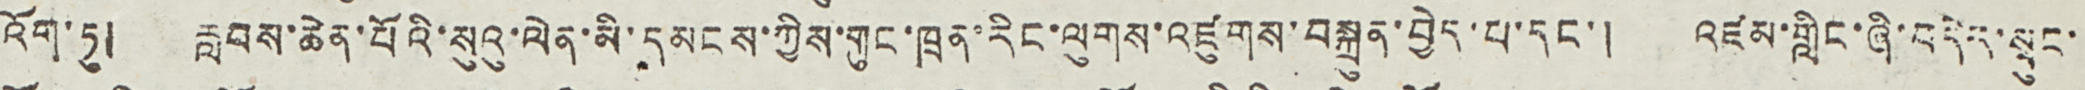འོག་ཏུ། རླབས་ཆེན་པོའི་སུའུ་ལེན་མི་དམངས་ཀྱིས་གུང་ཁྲན་རིང་ལུགས་འཛུགས་བསྐྲུན་བྱེད་པ་དང་། འཛམ་གླིང་ཞི་བདེར་སྲུང་
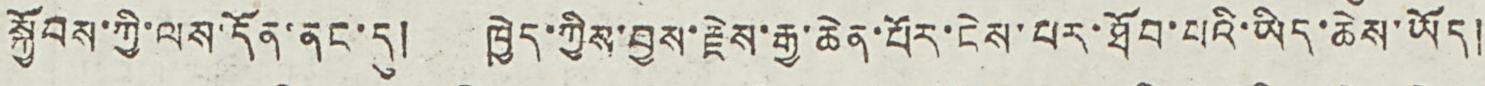སྐྱོབས་ཀྱི་ལས་དོན་ནང་དུ། ཁྱེད་ཀྱིས་བྱས་རྗེས་རྒྱ་ཆེན་པོར་ངེས་པར་ཐོབ་པའི་ཡིད་ཆེས་ཡོད།
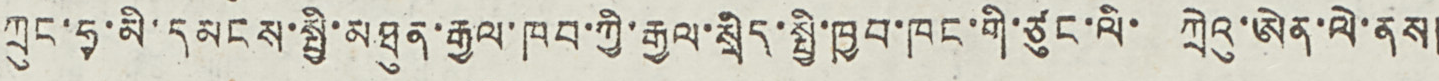ཀྲུང་ཧྭ་མི་དམངས་སྤྱི་མཐུན་རྒྱལ་ཁབ་ཀྱི་རྒྱལ་སྲིད་སྤྱི་ཁྱབ་ཁང་གི་ཙུང་ལི་ ཀྲེའུ་ཨེན་ལེ་ནས།
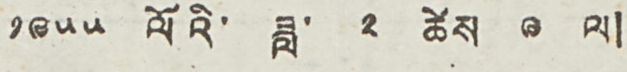༡༩༥༥ ལོའི་ ཟླ་ ༢ ཚེས ༩ ལ།
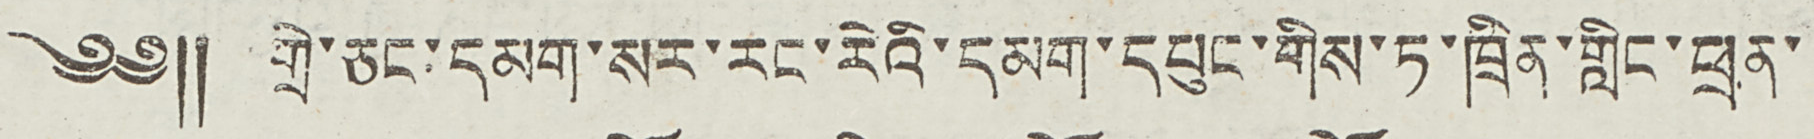༄༅༎ གྲེ་ཅང་དམག་སར་རང་རེའི་དམག་དཔུང་གིས་ཏ་ཁྲིན་གླིང་ཕྲན་
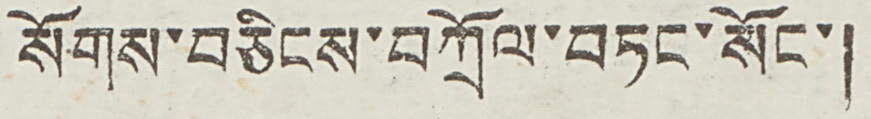སོགས་བཅིངས་བཀྲོལ་བཏང་སོང་།
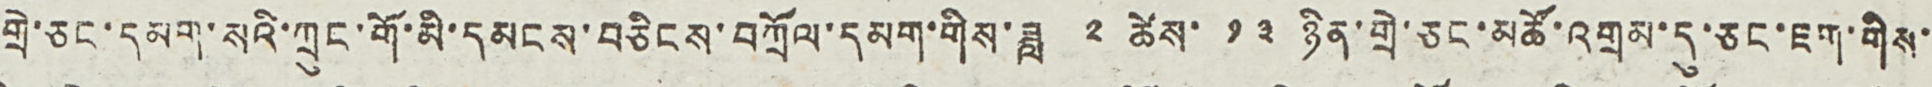གྲེ་ཅང་དམག་སའི་ཀྲུང་གོ་མི་དམངས་བཅིངས་བཀྲོལ་དམག་གིས་ཟླ ༢ ཚེས་ ༡༣ ཉིན་གྲེ་ཅང་མཚོ་འགྲམ་དུ་ཅང་ཇག་གིས་
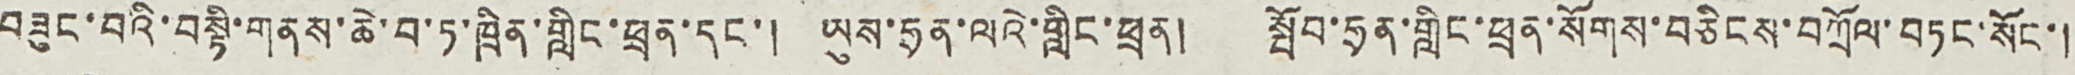བཟུང་བའི་བསྟི་གནས་ཆེ་བ་ཏ་ཁྲིན་གླིང་ཕྲན་དང་། ཡུས་ཧྲན་ལའེ་གླིང་ཕྲན། སྤོབ་ཧྲན་གླིང་ཕྲན་སོགས་བཅིངས་བཀྲོལ་བཏང་སོང་།
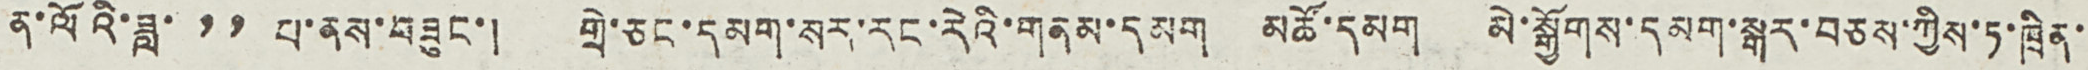ན་ལོའི་ཟླ་ ༡༡ པ་ནས་བཟུང་། གྲེ་ཅང་དམག་སར་རང་རེའི་གནམ་དམག མཚོ་དམག མེ་སྒྱོགས་དམག་སྒར་བཅས་ཀྱིས་ཏ་ཁྲིན་
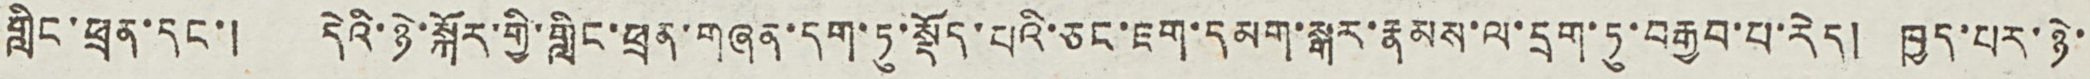གླིང་ཕྲན་དང་། དེའི་ཉེ་སྐོར་གྱི་གླིང་ཕྲན་གཞན་དག་ཏུ་སྡོད་པའི་ཅང་ཇག་དམག་སྒར་རྣམས་ལ་དྲག་ཏུ་བརྒྱབ་པ་རེད། ཁྱད་པར་ཉེ་
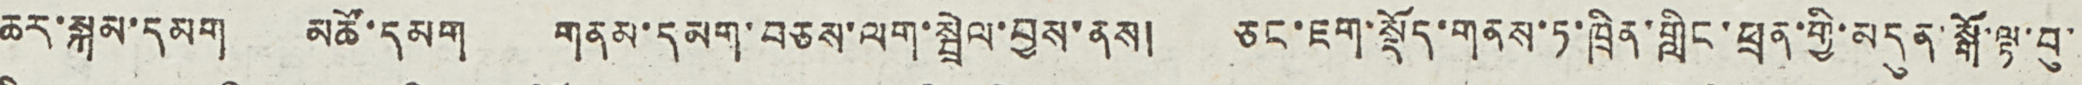ཆར་སྐམ་དམག མཚོ་དམག གནམ་དམག་བཅས་ལག་སྦྲེལ་བྱས་ནས། ཅང་ཇག་སྡོད་གནས་ཏ་ཁྲིན་གླིང་ཕྲན་གྱི་མདུན་སྒོ་ལྟ་བུ་
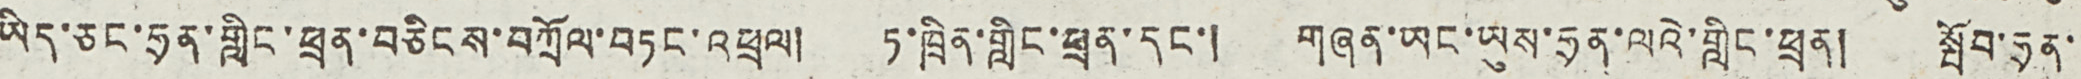ཡིད་ཅང་ཧྲན་གླིང་ཕྲན་བཅིངས་བཀྲོལ་བཏང་བཕྲལ། ཏ་ཁྲིན་གླིང་ཕྲན་དང་། གཞན་ཡང་ཡུས་ཧྲན་ལའེ་གླིང་ཕྲན། སྤོབ་ཧྲན་
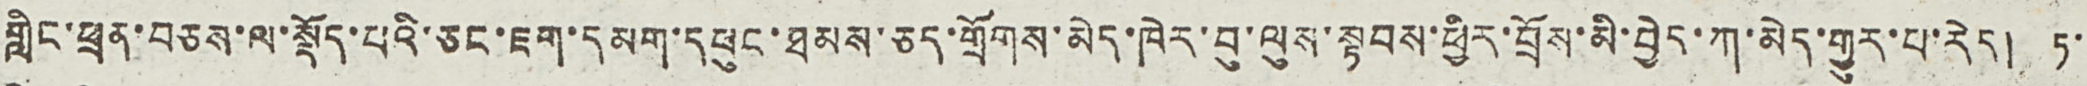གླིང་ཕྲན་བཅས་ལ་སྡོད་པའི་ཅང་ཇག་དམག་དཔུང་ཐམས་ཅད་གྲོགས་མེད་ཁེར་བུ་ལུས་སྟབས་ཕྱིར་བྲོས་མི་བྱེད་ཀ་མེད་གྱུར་པ་རེད། ཏ་
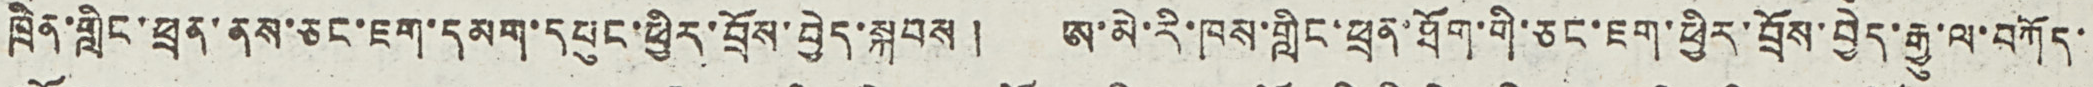ཁྲིན་གླིང་ཕྲན་ནས་ཅང་ཇག་དམག་དཔུང་ཕྱིར་བྲོས་བྱེད་སྐབས། ཨ་མེ་རི་ཁས་གླིང་ཕྲན་ཐོག་གི་ཅང་ཇག་ཕྱིར་བྲོས་བྱེད་རྒྱུ་ལ་བཀོད་
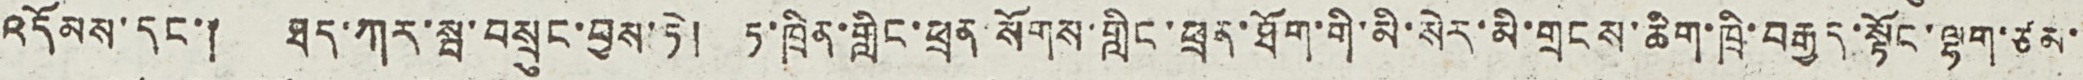འདོམས་དང་། ཐད་ཀར་སྦ་བསྲུང་བྱས་ཏེ། ཏ་ཁྲིན་གླིང་ཕྲན་སོགས་གླིང་ཕྲན་ཐོག་གི་མི་སེར་མི་གྲངས་ཆིག་ཁྲི་བརྒྱད་སྟོང་ལྷག་ཙམ་
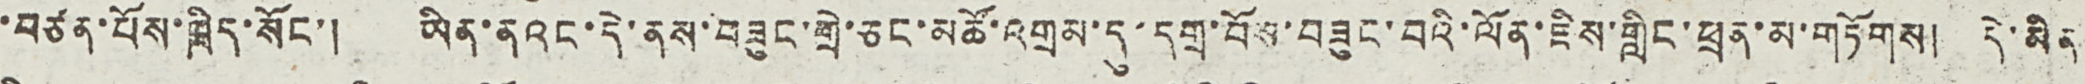་བཙན་པོས་ཁྲིད་སོང་། ཡིན་ནའང་དེ་ནས་བཟུང་གྲེ་ཅང་མཚོ་འགྲམ་དུ་དགྲ་པོས་བཟུང་བའི་ལོན་ཇིས་གླིང་ཕྲན་མ་གཏོགས། དེ་མིན
